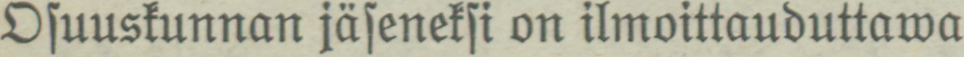Osuuskunnan jäseneksi on ilmoittauduttawa
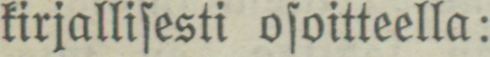kirjallisesti osoitteella:
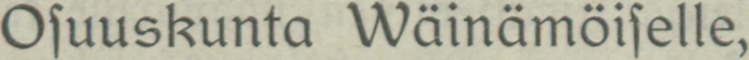Osuuskunta Wäinämöiselle,
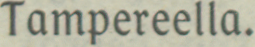Tampereella.
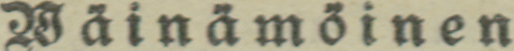Wäinämöinen.
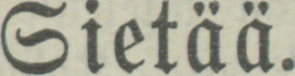Sietää.
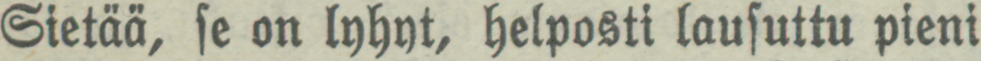Sietää, se on lyhyt, helposti lausuttu pieni
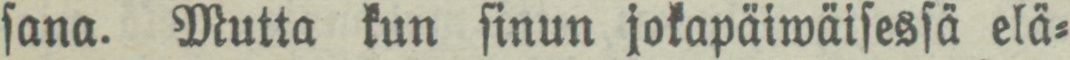sana. Mutta kun sinun jokapäiwäisessä elä-
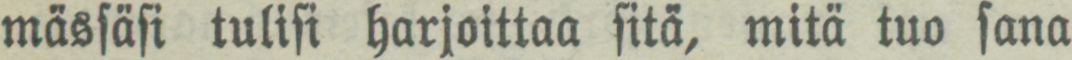mässäsi tulisi harjoittaa sitä, mitä tuo sana
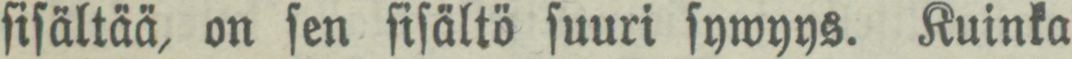sisältää, on sen sisältö suuri sywyys. Kuinka
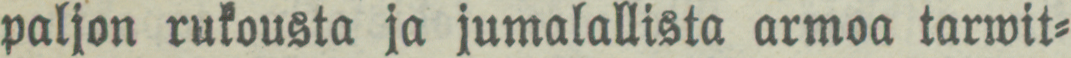paljon rukousta ja jumalallista armoa tarwit-
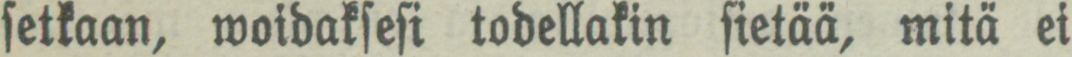setkaan, woidaksesi todellakin sietää, mitä ei
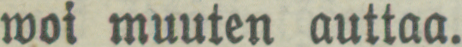woi muuten auttaa.
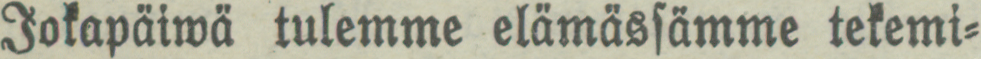Jokapäiwä tulemme elämässämme tekemi-
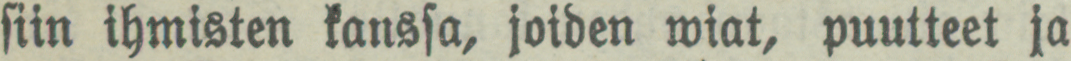siin ihmisten kanssa, joiden wiat, puutteet ja
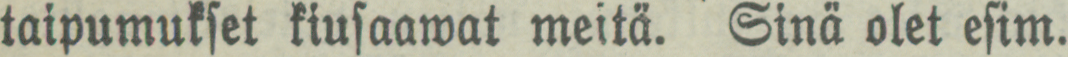taipumukset kiusaawat meitä. Sinä olet esim.
